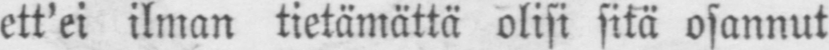ett'ei ilman tietämättä olisi sitä osannut
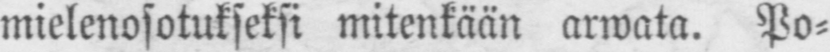mielenosotukseksi mitenkään arwata. Po-
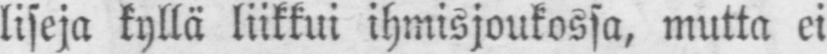liseja kyllä liikkui ihmisjoukossa, mutta ei
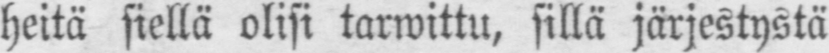heitä siellä olisi tarwittu, sillä järjestystä
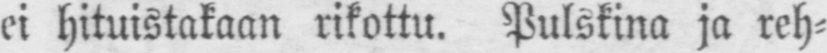ei hituistakaan rikottu. Pulskina ja reh-
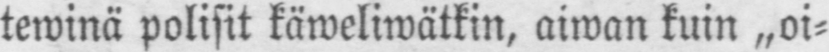tewinä pölisit käweliwätkin, aiwan kuin ˶oi-
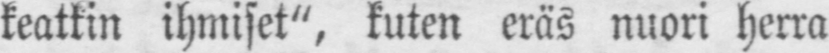keatkin ihmiset", kuten eräs nuori herra
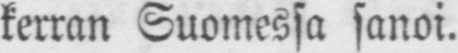kerran Suomessa sanoi.
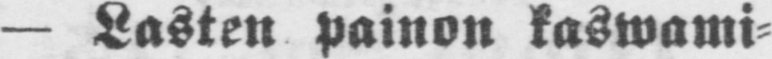— Lasten painon kaswami-
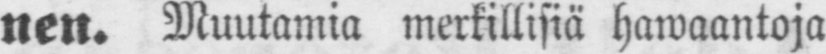nen. Muutamia merkillisiä hawaantoja
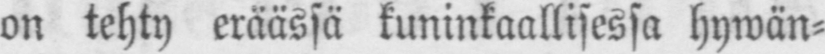on tehty eräässä kuninkaallisessa hywän-
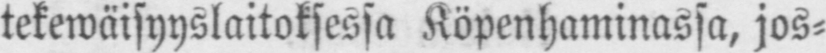tekewäisyyslaitoksessa Köpenhaminassa, jos-
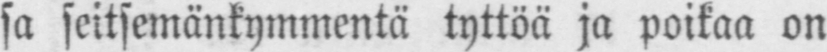sa seitsemänkymmentä tyttöä ja poikaa on
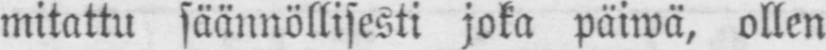mitattu säännöllisesti joka päiwä, ollen
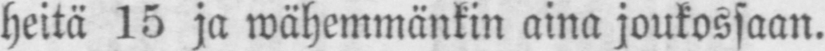heitä 15 ja wähemmänkin aina joukossaan.
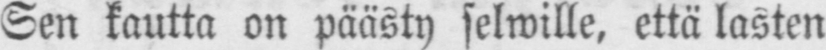Sen kautta on päästy selwille, että lasten
